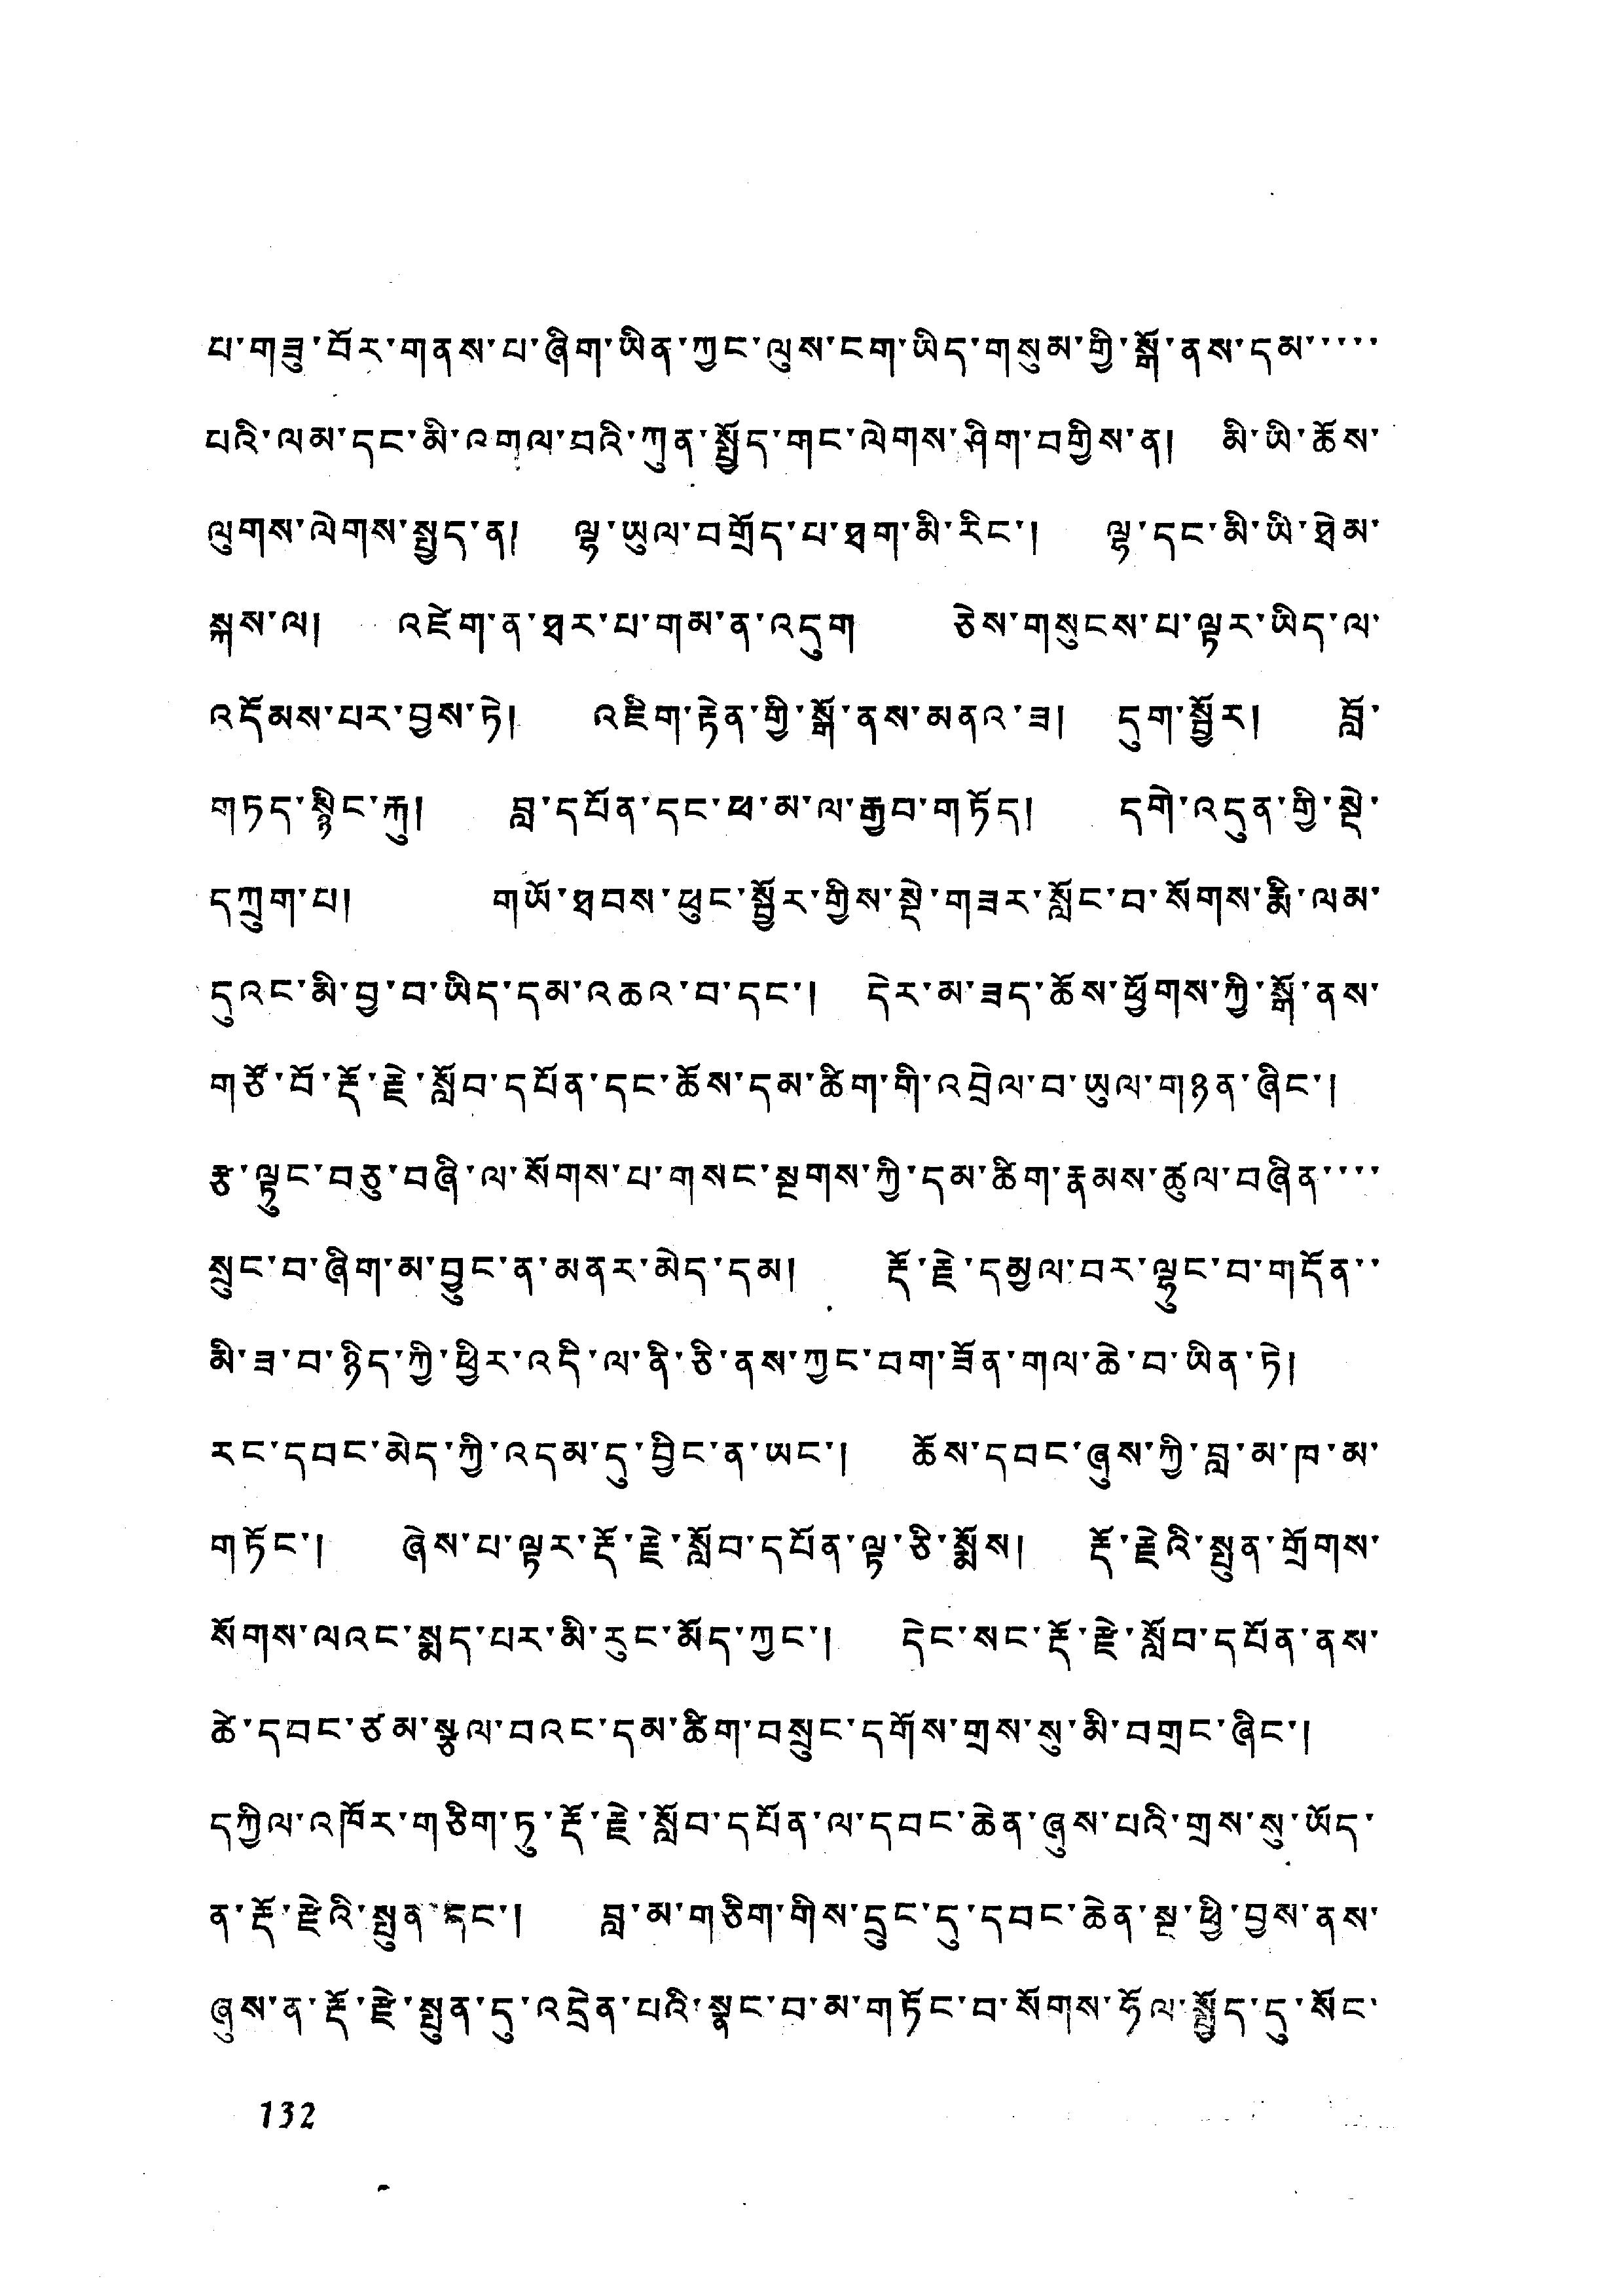པ་གཟུ་བོར་གནས་པ་ཞིག་ཡིན་ཀྱང་ལུས་ངག་ཡིད་གསུམ་གྱི་སྒོ་ནས་དམ་་་་་
པའི་ལམ་དང་མི་འགལ་བའི་ཀུན་སྤྱོད་གང་ལེགས་ཤིག་བགྱིས་ན། མི་ཡི་ཆོས་
ལུགས་ལེགས་སྤྱད་ན། ལྷ་ཡུལ་བགྲོད་པ་ཐག་མི་རིང་། ལྷ་དང་མི་ཡི་ཐེམ་
སྐུས་ལ། འཇིག་ན་ཐར་པ་གམ་ན་འདུག ཅེས་གསུངས་པ་ལྟར་ཡིད་ལ་
འདོམས་པར་བྱས་ཏེ། འཇིག་རྟེན་གྱི་སྒོ་ནས་མནའ་ཟ། དུག་སྦྱོར། བློ་
གཏད་སྙིང་རྒུ། བླ་དཔོན་དང་ཕ་མ་ལ་རྒྱབ་གཏོད། དགེ་འདུན་གྱི་སྡེ་
གྲུག་པ། གཡོ་ཐབས་ཕུང་སྦྱོར་གྱིས་སྡེ་གཟར་སློང་བ་སོགས་རྨི་ལམ་
དུའང་མི་བྱ་བ་ཡིད་དམ་འཆའ་བ་དང་། དེར་མ་ཟད་ཆོས་ཕྱོགས་ཀྱི་སྒོ་ནས་
གཙོ་བོ་རྡོ་རྗེ་སློབ་དཔོན་དང་ཆོས་དམ་ཚིག་གི་འབྲེལ་བ་ཡུལ་གཉན་ཞིང་།
རྩ་ལྟུང་བཅུ་བཞི་ལ་སོགས་པ་གསང་སྔགས་ཀྱི་དམ་ཚིག་རྣམས་ཚུལ་བཞིན་་་་
སྲུང་བ་ཞིག་མ་བྱུང་ན་མནར་མེད་དམ། རྡོ་རྗེ་དམྱལ་བར་ལྷུང་བ་གདོན་་
མི་ཟ་བ་ཉིད་ཀྱི་ཕྱིར་འདི་ལ་ནི་ཅི་ནས་ཀྱང་བག་ཟོན་གལ་ཆེ་བ་ཡིན་ཏེ།
རང་དབང་མེད་ཀྱི་འདམ་དུ་བྱིང་ན་ཡང་། ཆོས་དབང་ཞུས་ཀྱི་བླ་མ་ཁ་མ་
གཏོང་། ཞེས་པ་ལྟར་རྡོ་རྗེ་སློབ་དཔོན་ལྟ་ཅི་སྨོས། རྡོ་རྗེའི་སྤུན་གྲོགས་
སོགས་ལའང་སྨད་པར་མི་རུང་མོད་ཀྱང་། དེང་སང་རྡོ་རྗེ་སློབ་དཔོན་ནས་
ཚེ་དབང་ཙམ་སྩལ་བའང་དམ་ཚིག་བསྲུང་དགོས་གྲས་སུ་མི་བགྲང་ཞིང་།
དཀྱིལ་འཁོར་གཅིག་ཏུ་རྡོ་རྗེ་སློབ་དཔོན་ལ་དབང་ཆེན་ཞུས་པའི་གྲས་སུ་ཡོད་
ན་རྡོ་རྗེའི་སྤུན་དང་། བླ་མ་གཅིག་གིས་དྲུང་དུ་དབང་ཆེན་སྔ་ཕྱི་བྱས་ནས་
ཞུས་ན་རྡོ་རྗེ་སྤུན་དུ་འདྲེན་པའི་སྣང་བ་མ་གཏོང་བ་སོགས་ཧོལ་སྤྱོད་དུ་སོང་
132
